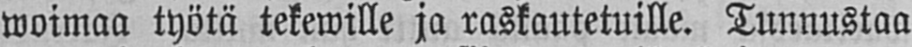woimaa työtä tekewille ja raskautetuille. Tunnustaa
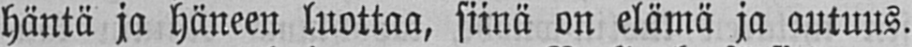häntä ja häneen luottaa, siinä on elämä ja autuus.
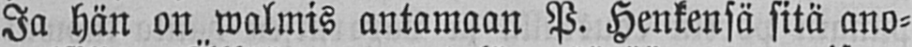Ja hän on walmis antamaan P. Henkensä sitä ano-
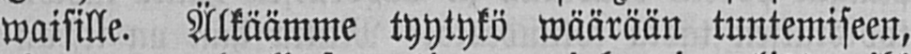waisille. Älkäämme tyytykö wäärään tuntemiseen,
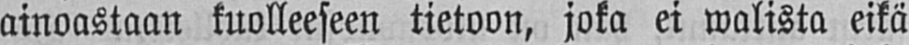ainoastaan kuolleeseen tietoon, joka ei walista eikä
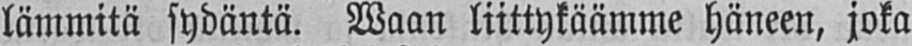lämmitä sydäntä. Waan liittykäämme häneen, joka
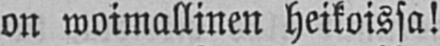on woimallinen heikoissa!
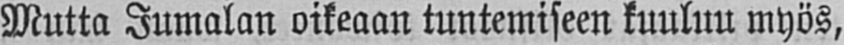Mutta Jumalan oikeaan tuntemiseen kuuluu myös,
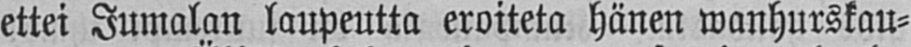ettei Jumalan laupeutta eroiteta hänen wanhurskau-
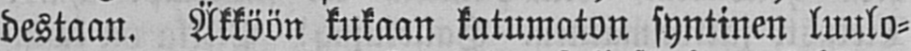destaan. Älköön kukaan katumaton syntinen luulo-
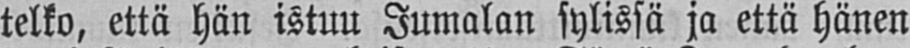telko, että hän istuu Jumalan sylissä ja että hänen
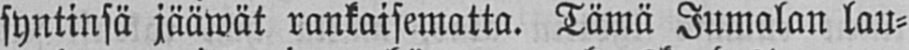syntinsä jääwät rankaisematta. Tämä Jumalan lau-
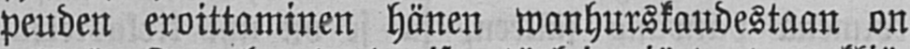peuden eroittaminen hänen wanhurskaudestaan on
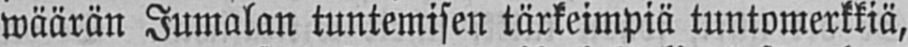wäärän Jumalan tuntemisen tärkeimpiä tuntomerkkiä,
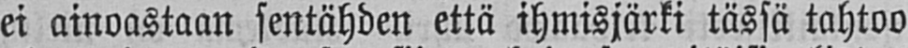ei ainoastaan sentähden että ihmisjärki tässä tahtoo
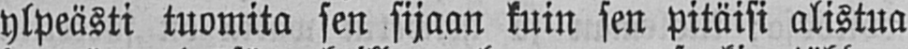ylpeästi tuomita sen sijaan kuin sen pitäisi alistua
